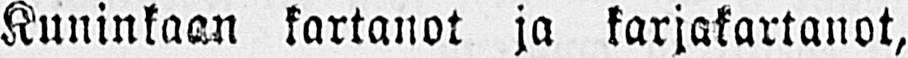Kuninkaan kartanot ja karjakartanot,
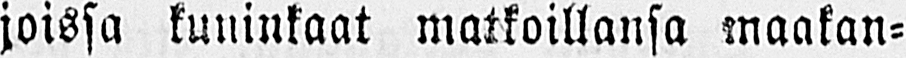joissa kuninkaat matkoillansa maakan-
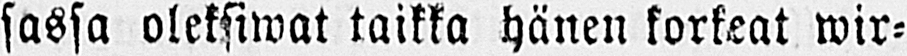sassa oleksiwat taikka hänen korkeat wir-
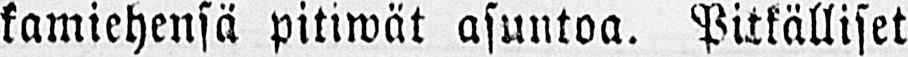kamiehensä pitiwät asuntoa. Pitkälliset
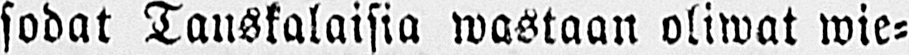sodat Tanskalaisia wastaan oliwat wie-
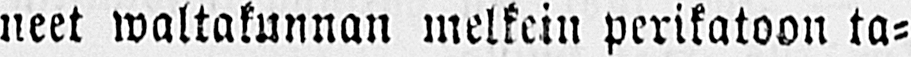neet waltakunnan melkein perikatoon ta-
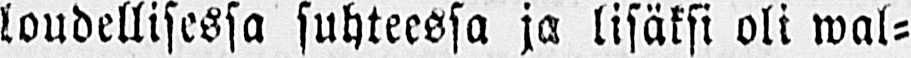loudellisessa suhteessa ja lisäksi oli wal-
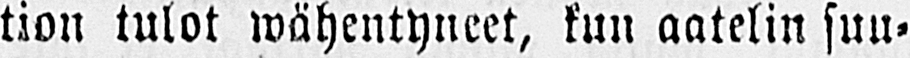tion tulot wähentyneet, kun aatelin suu-
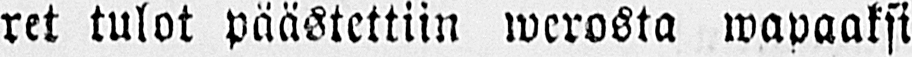ret tulot päästettiin werosta wapaaksi
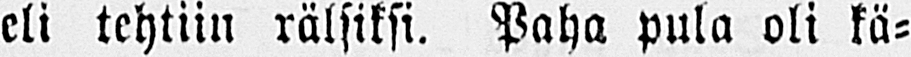eli tehtiin rälsiksi. Paha pula oli kä-
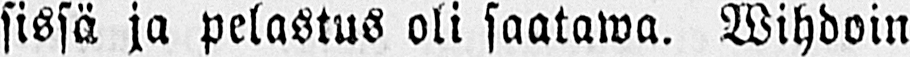sissä ja pelastus oli saatawa. Wihdoin
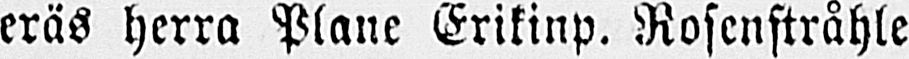eräs herra Plane Erikinp. Rosenstråhle
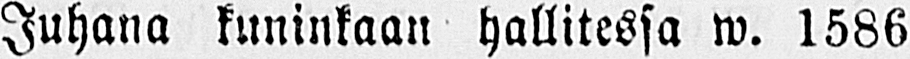Juhana kuninkaan hallitessa w. 1586
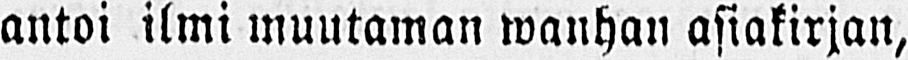antoi ilmi muutaman wanhan asiakirjan,
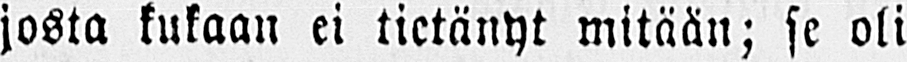josta kukaan ei tietänyt mitään; se oli
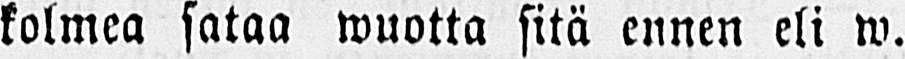kolmea sataa wuotta sitä ennen eli w.
